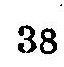38
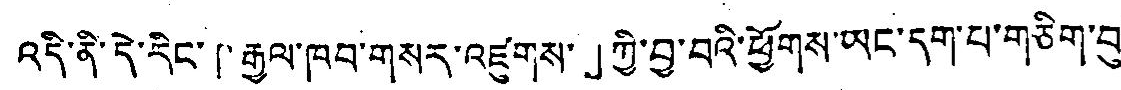འདི་ནི་དེ་རིང་「རྒྱལ་ཁབ་གསར་འཛུགས་」ཀྱི་བྱ་བའི་ཕྱོགས་ཡང་དག་པ་གཅིག་བུ་
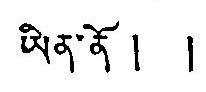ཡིན་ནོ། །
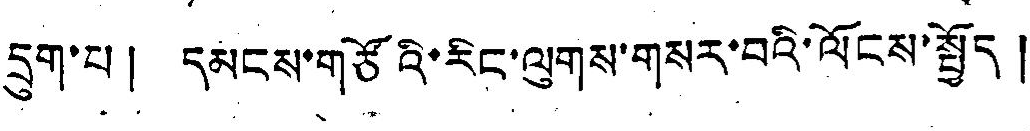དྲུག་པ། དམངས་གཙོའི་རིང་ལུགས་གསར་བའི་ལོངས་སྤྱོད།
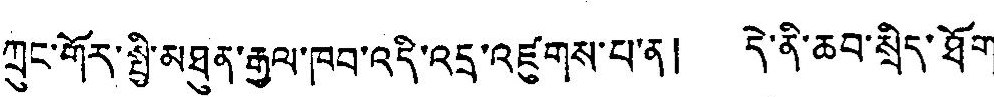ཀྲུང་གོར་སྤྱི་མཐུན་རྒྱལ་ཁབ་འདི་འདྲ་འཛུགས་པ་ན། དེ་ནི་ཆབ་སྲིད་ཐོག
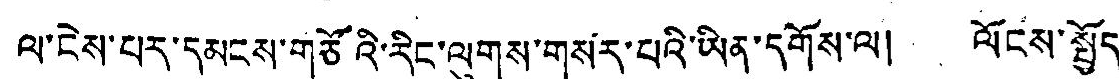ལ་ངེས་པར་དམངས་གཙོའི་རིང་ལུགས་གསར་པའི་ཡིན་དགོས་ལ། ལོངས་སྤྱོད་
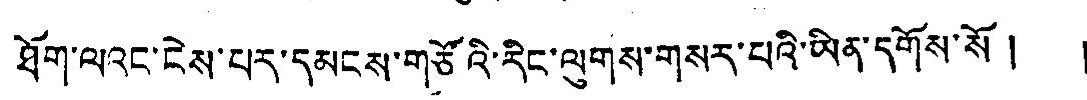ཐོག་ལའང་ངེས་པར་དམངས་གཙོའི་རིང་ལུགས་གསར་པའི་ཡིན་དགོས་སོ། །
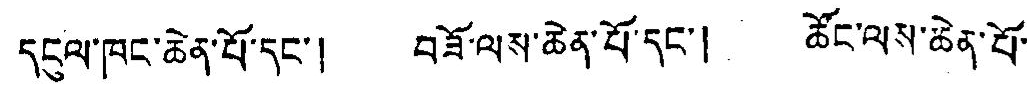དངུལ་ཁང་ཆེན་པོ་དང་། བཟོ་ལས་ཆེན་པོ་དང་། ཚོང་ལས་ཆེན་པོ་
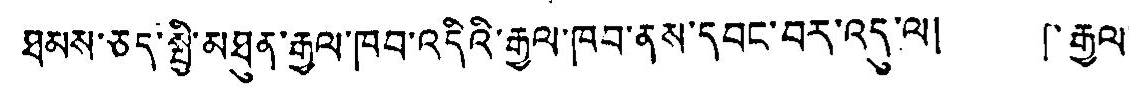ཐམས་ཅད་སྤྱི་མཐུན་རྒྱལ་ཁབ་འདིའི་རྒྱལ་ཁབ་ནས་དབང་བར་འདུ་ལ། 「རྒྱལ་
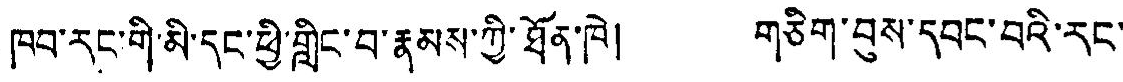ཁབ་རང་གི་མི་དང་ཕྱི་གླིང་བ་རྣམས་ཀྱི་ཐོན་ཁེ། གཅིག་བུས་དབང་བའི་རང་
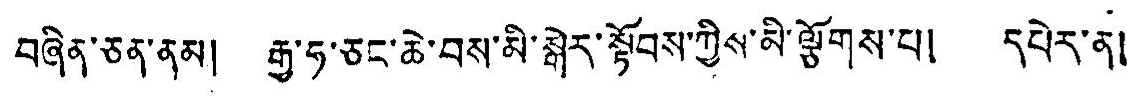བཞིན་ཅན་ནམ། རྒྱ་ཧ་ཅང་ཆེ་བས་མི་སྒེར་སྟོབས་ཀྱིས་མི་ལྕོགས་པ། དཔེར་ན།
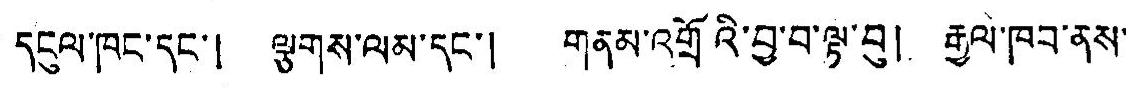དངུལ་ཁང་དང་། ལྕགས་ལམ་དང་། གནམ་འགྲོའི་བྱ་བ་ལྟ་བུ། རྒྱལ་ཁབ་ནས་
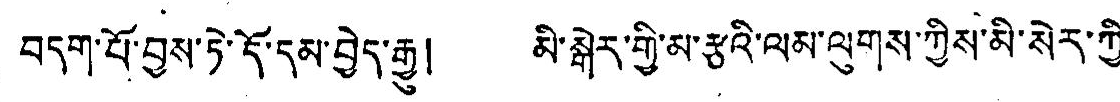བདག་པོ་བྱས་ཏེ་དོ་དམ་བྱེད་རྒྱུ། མི་སྒེར་གྱི་མ་རྩའི་ལམ་ལུགས་ཀྱིས་མི་སེར་ཀྱི་
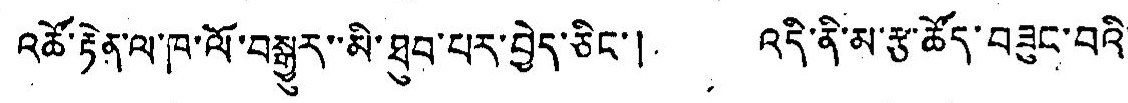འཚོ་རྟེན་ལ་ཁ་ལོ་བསྒྱུར་མི་ཐུབ་པར་བྱེད་ཅིང་། འདི་ནི་མ་རྩ་ཚོད་བཟུང་བའི་
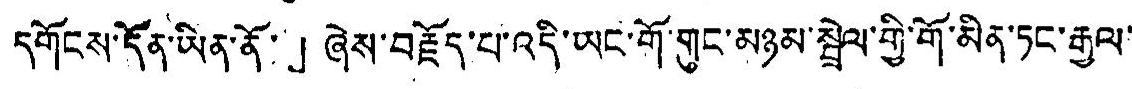དགོངས་དོན་ཡིན་ནོ་」ཞེས་བརྗོད་པ་འདི་ཡང་གོ་གུང་མཉམ་སྦྲེལ་གྱི་གོ་མིན་ཏང་རྒྱལ་
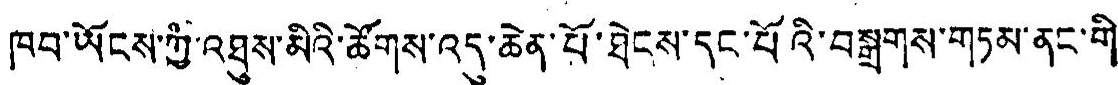ཁབ་ཡོངས་ཀྱི་འཐུས་མིའི་ཚོགས་འདུ་ཆེན་པོ་ཐེངས་དང་པོའི་བསྒྲགས་གཏམ་ནང་གི་
